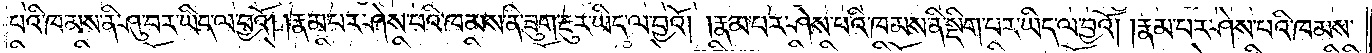པའི་ཁམས་ནི་ཤུ་བར་ཡིད་ལ་བྱའོ། །རྣམ་པར་ཤེས་པའི་ཁམས་ནི་ཟུག་རྔུར་ཡིད་ལ་བྱའོ། །རྣམ་པར་ཤེས་པའི་ཁམས་ནི་སྡིག་པར་ཡིད་ལ་བྱའོ། །རྣམ་པར་ཤེས་པའི་ཁམས་
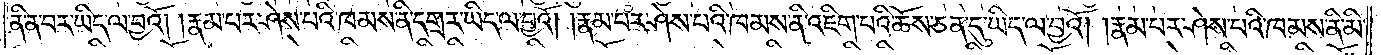ནི་ན་བར་ཡིད་ལ་བྱའོ། །རྣམ་པར་ཤེས་པའི་ཁམས་ནི་དགྲར་ཡིད་ལ་བྱའོ། །རྣམ་པར་ཤེས་པའི་ཁམས་ནི་འཇིག་པའི་ཆོས་ཅན་དུ་ཡིད་ལ་བྱའོ། །རྣམ་པར་ཤེས་པའི་ཁམས་ནི་མི་
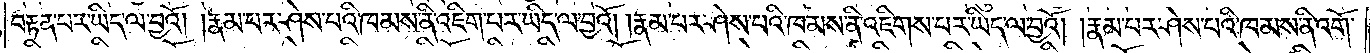བརྟན་པར་ཡིད་ལ་བྱའོ། །རྣམ་པར་ཤེས་པའི་ཁམས་ནི་འཇིག་པར་ཡིད་ལ་བྱའོ། །རྣམ་པར་ཤེས་པའི་ཁམས་ནི་འཇིགས་པར་ཡིད་ལ་བྱའོ། །རྣམ་པར་ཤེས་པའི་ཁམས་ནི་འགོ་
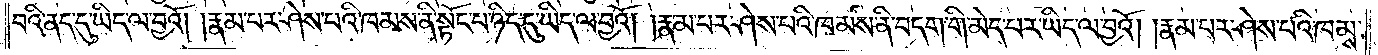བའི་ནད་དུ་ཡིད་ལ་བྱའོ། །རྣམ་པར་ཤེས་པའི་ཁམས་ནི་སྟོང་པ་ཉིད་དུ་ཡིད་ལ་བྱའོ། །རྣམ་པར་ཤེས་པའི་ཁམས་ནི་བདག་གི་མེད་པར་ཡིད་ལ་བྱའོ། །རྣམ་པར་ཤེས་པའི་ཁམས་
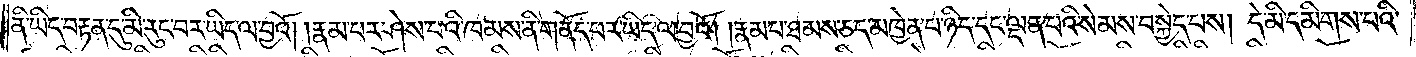ནི་ཡིད་བརྟན་དུ་མི་རུང་བར་ཡིད་ལ་བྱའོ། །རྣམ་པར་ཤེས་པའི་ཁམས་ནི་གནོད་པར་ཡིད་ལ་བྱའོ། །རྣམ་པར་ཐམས་ཅད་མཁྱེན་པ་ཉིད་དང་ལྡན་པའི་སེམས་བསྐྱེད་པས། དེ་མི་དམིགས་པའི་
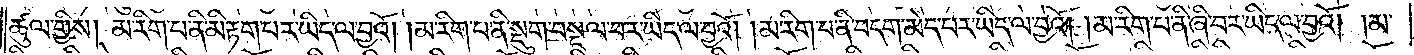ཚུལ་གྱིས། མ་རིག་པ་ནི་མི་རྟག་པར་ཡིད་ལ་བྱའོ། །མ་རིག་པ་ནི་སྡུག་བསྔལ་བར་ཡིད་ལ་བྱའོ། །མ་རིག་པ་ནི་བདག་མེད་པར་ཡིད་ལ་བྱའོ། །མ་རིག་པ་ནི་ཞི་བར་ཡིད་ལ་བྱའོ། །མ་
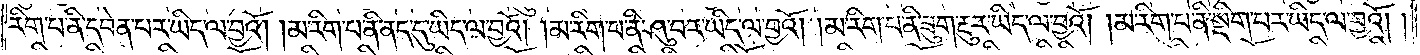རིག་པ་ནི་དབེན་པར་ཡིད་ལ་བྱའོ། །མ་རིག་པ་ནི་ནད་དུ་ཡིད་ལ་བྱའོ། །མ་རིག་པ་ནི་ཤུ་བར་ཡིད་ལ་བྱའོ། །མ་རིག་པ་ནི་ཟུག་རྔུར་ཡིད་ལ་བྱའོ། །མ་རིག་པ་ནི་སྡིག་པར་ཡིད་ལ་བྱའོ། །
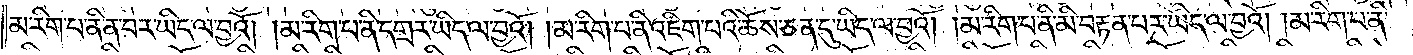མ་རིག་པ་ནི་ན་བར་ཡིད་ལ་བྱའོ། །མ་རིག་པ་ནི་དགྲར་ཡིད་ལ་བྱའོ། །མ་རིག་པ་ནི་འཇིག་པའི་ཆོས་ཅན་དུ་ཡིད་ལ་བྱའོ། །མ་རིག་པ་ནི་མི་བརྟན་པར་ཡིད་ལ་བྱའོ། །མ་རིག་པ་ནི་
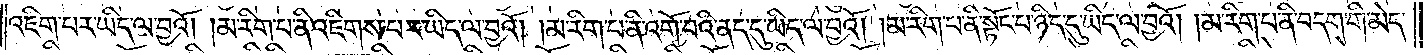འཇིག་པར་ཡིད་ལ་བྱའོ། །མ་རིག་པ་ནི་འཇིགས་པར་ཡིད་ལ་བྱའོ། །མ་རིག་པ་ནི་འགོ་པའི་ནད་དུ་ཡིད་ལ་བྱའོ། །མ་རིག་པ་ནི་སྟོང་པ་ཉིད་དུ་ཡིད་ལ་བྱའོ། །མ་རིག་པ་ནི་བདག་གི་མེད་
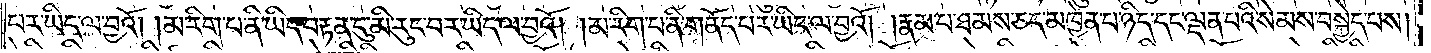པར་ཡིད་ལ་བྱའོ། །མ་རིག་པ་ནི་ཡིད་བརྟན་དུ་མི་རུང་བར་ཡིད་ལ་བྱའོ། །མ་རིག་པ་ནི་གནོད་པར་ཡིད་ལ་བྱའོ། །རྣམ་པ་ཐམས་ཅད་མཁྱེན་པ་ཉིད་དང་ལྡན་པའི་སེམས་བསྐྱེད་པས།
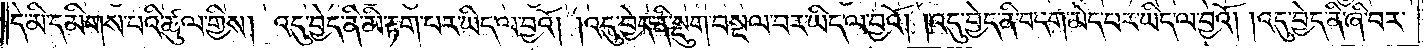དེ་མི་དམིགས་པའི་ཚུལ་གྱིས། འདུ་བྱེད་ནི་མི་རྟག་པར་ཡིད་ལ་བྱའོ། །འདུ་བྱེད་ནི་སྡུག་བསྔལ་བར་ཡིད་ལ་བྱའོ། །འདུ་བྱེད་ནི་བདག་མེད་པར་ཡིད་ལ་བྱའོ། །འདུ་བྱེད་ནི་ཞི་བར་
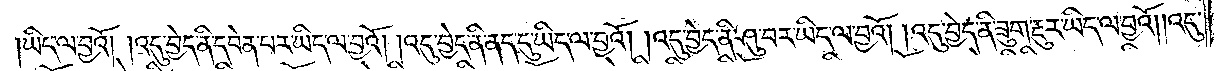ཡིད་ལ་བྱའོ། །འདུ་བྱེད་ནི་དབེན་པར་ཡིད་ལ་བྱའོ། །འདུ་བྱེད་ནི་ནད་དུ་ཡིད་ལ་བྱའོ། །འདུ་བྱེད་ནི་ཤུ་བར་ཡིད་ལ་བྱའོ། །འདུ་བྱེད་ནི་ཟུག་རྔུར་ཡིད་ལ་བྱའོ། །འདུ་
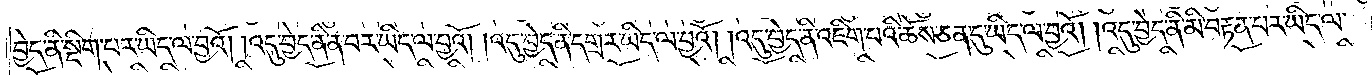བྱེད་ནི་སྡིག་པར་ཡིད་ལ་བྱའོ། །འདུ་བྱེད་ནི་ན་བར་ཡིད་ལ་བྱའོ། །འདུ་བྱེད་ནི་དགྲར་ཡིད་ལ་བྱའོ། །འདུ་བྱེད་ནི་འཇིག་པའི་ཆོས་ཅན་དུ་ཡིད་ལ་བྱའོ། །འདུ་བྱེད་ནི་མི་བརྟན་པར་ཡིད་ལ་
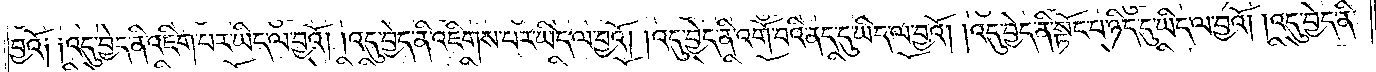བྱའོ༏ ༏འདུ་བྱེད་ནི་འཇིག་པར་ཡིད་ལ་བྱའོ། །འདུ་བྱེད་ནི་འཇིགས་པར་ཡིད་ལ་བྱའོ། །འདུ་བྱེད་ནི་འགོ་བའི་ནད་དུ་ཡིད་ལ་བྱའོ། །འདུ་བྱེད་ནི་སྟོང་པ་ཉིད་དུ་ཡིད་ལ་བྱའོ། །འདུ་བྱེད་ནི་
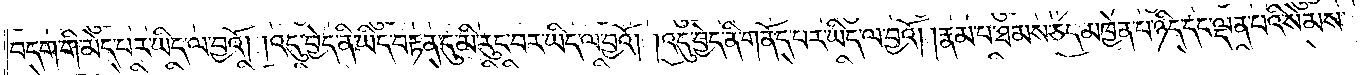བདག་གི་མེད་པར་ཡིད་ལ་བྱའོ། །འདུ་བྱེད་ནི་ཡིད་བརྟན་དུ་མི་རུང་བར་ཡིད་ལ་བྱའོ། །འདུ་བྱེད་ནི་གནོད་པར་ཡིད་ལ་བྱའོ། །རྣམ་པ་ཐམས་ཅད་མཁྱེན་པ་ཉིད་དང་ལྡན་པའི་སེམས་
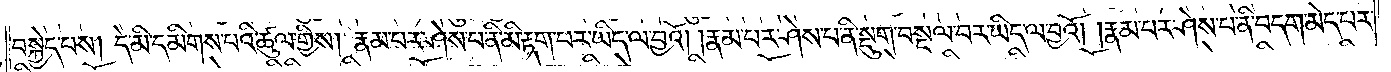བསྐྱེད་པས། དེ་མི་དམིགས་པའི་ཚུལ་གྱིས། རྣམ་པར་ཤེས་པ་ནི་མི་རྟག་པར་ཡིད་ལ་བྱའོ། །རྣམ་པར་ཤེས་པ་ནི་སྡུག་བསྔལ་བར་ཡིད་ལ་བྱའོ། །རྣམ་པར་ཤེས་པ་ནི་བདག་མེད་པར་
